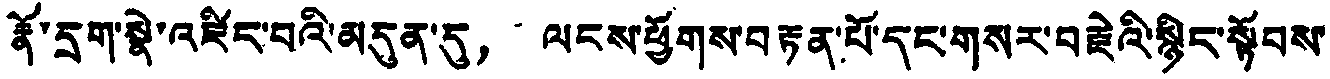རྣོ་དྲུག་སྣེ་འཛིང་བའི་མདུན་དུ， ལངས་ཕྱོགས་བརྟན་པོ་དང་གསར་བརྗེའི་སྙིང་སྟོབས་
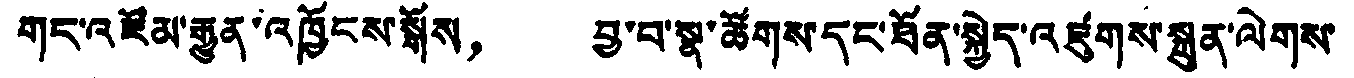གང་འཛོམ་རྒྱུན་འཁྱོངས་སྒོས， བྱ་བ་སྣ་ཚོགས་དང་ཐོན་སྐྱེད་འཛུགས་སྐྲུན་ལེགས་
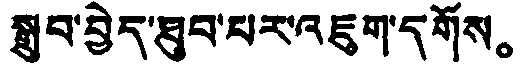སྒྲུབ་བྱེད་ཐུབ་པར་འཇུག་དགོས。
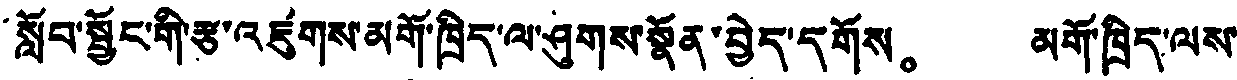སློབ་སྦྱོང་གི་རྩ་འཛུགས་མགོ་ཁྲིད་ལ་ཤུགས་སྣོན་བྱེད་དགོས。 མགོ་ཁྲིད་ལས་
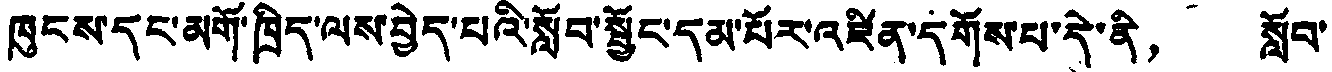ཁུངས་དང་མགོ་ཁྲིད་ལས་བྱེད་པའི་སློབ་སྦྱོང་དམ་པོར་འཛིན་དགོས་པ་དེ་ནི， སློབ་
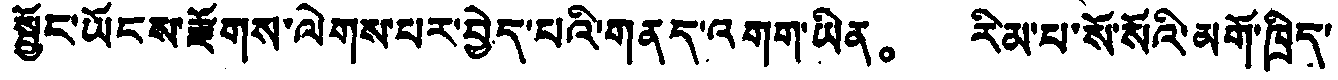སྦྱོང་ཡོངས་རྫོགས་ལེགས་པར་བྱེད་པའི་གནད་འགག་ཡིན。 རིམ་པ་སོ་སོའི་མགོ་ཁྲིད་
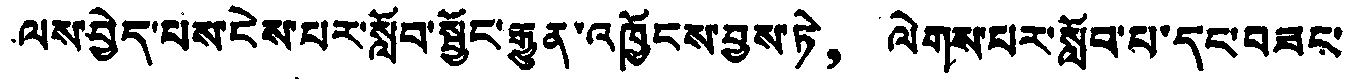ལས་བྱེད་པས་ངེས་པར་སློབ་སྦྱོང་རྒྱུན་འཁྱོངས་བྱས་ཏེ， ལེགས་པར་སློབ་པ་དང་བཟང་
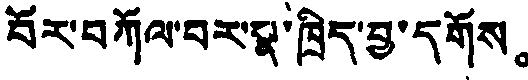བོར་བཀོལ་བར་སྣ་ཁྲིད་བྱ་དགོས。
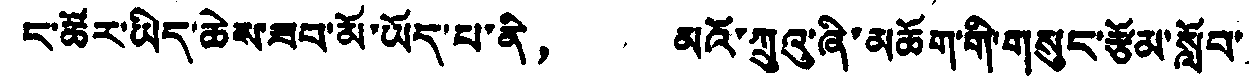ང་ཚོར་ཡིད་ཆེས་ཟབ་མོ་ཡོད་པ་ནི， མའོ་ཀྲུའུ་ཞི་མཆོག་གི་གསུང་རྩོམ་སློབ་
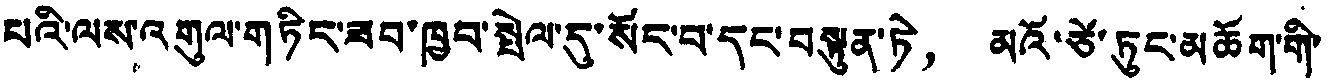པའི་ལས་འགུལ་གཏིང་ཟབ་ཁྱབ་སྤེལ་དུ་སོང་བ་དང་བསྟུན་ཏེ， མའོ་ཙེ་ཏུང་མཆོག་གི་
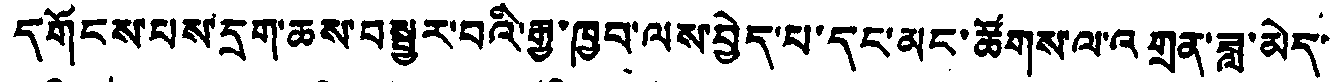དགོངས་པས་དྲག་ཆས་བསྦྱུར་བའི་རྒྱ་ཁྱབ་ལས་བྱེད་པ་དང་མང་ཚོགས་ལ་འགྲན་ཟླ་མེད་
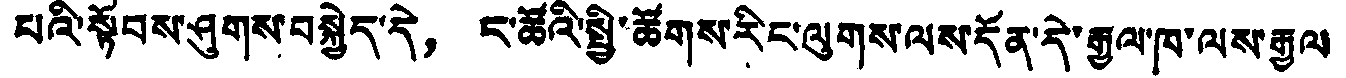པའི་སྟོབས་ཤུགས་བསྐྱེད་དེ， ང་ཚོའི་སྤྱི་ཚོགས་རིང་ལུགས་ལས་དོན་དེ་རྒྱལ་ཁ་ལས་རྒྱལ་
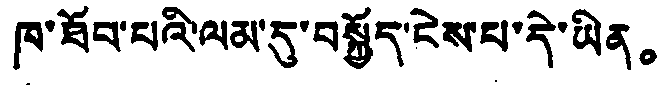ཁ་ཐོབ་པའི་ལམ་དུ་བསྐྱོད་ངེས་པ་དེ་ཡིན。
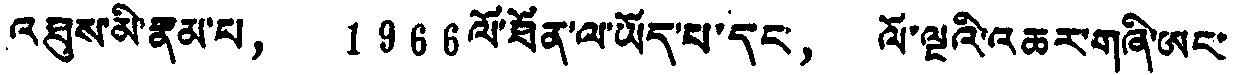འཐུས་མི་རྣམ་པ， 1966 ལོ་ཐོན་ལ་ཡོད་པ་དང， ལོ་ལྔའི་འཆར་གཞི་ཨང་
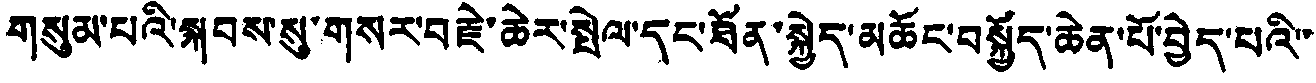གསུམ་པའི་སྐབས་སུ་གསར་བརྗེ་ཆེར་སྤེལ་དང་ཐོན་སྐྱེད་མཆོང་བསྐྱོད་ཆེན་པོ་བྱེད་པའི་་
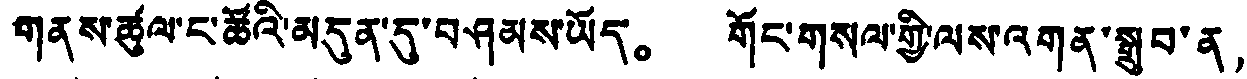གནས་ཚུལ་ང་ཚོའི་མདུན་དུ་བཤམས་ཡོད。 གོང་གསལ་གྱི་ལས་འགན་སྒྲུབ་ན，
